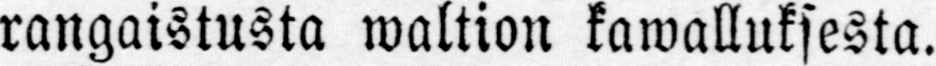rangaistusta waltion kawalluksesta.
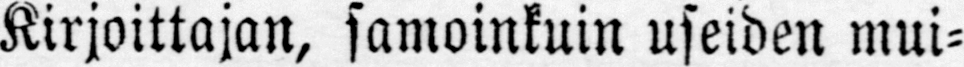Kirjoittajan, samoinkuin useiden mui-
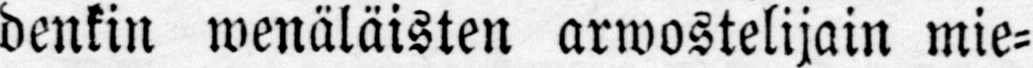denkin wenäläisten arwostelijain mie-
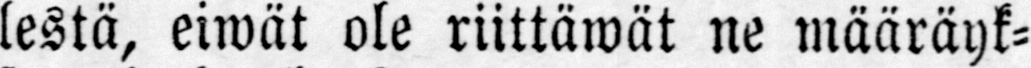lestä, eiwät ole riittäwät ne määräyk-
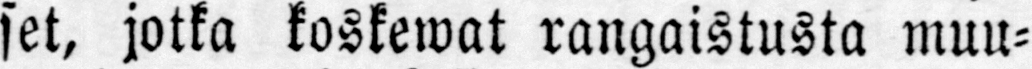set, jotka koskewat rangaistusta muu-
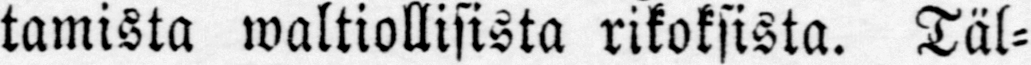tamista waltiollisista rikoksista. Täl-
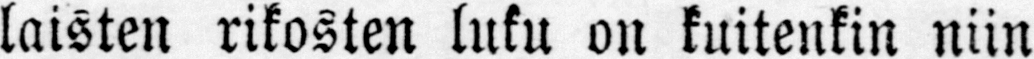laisten rikosten luku on kuitenkin niin
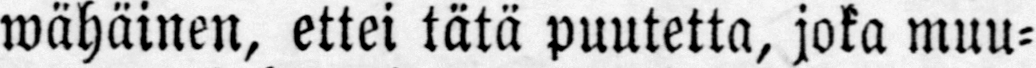wähäinen, ettei tätä puutetta, joka muu-
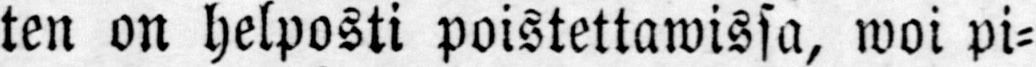ten on helposti poistettawissa, woi pi-
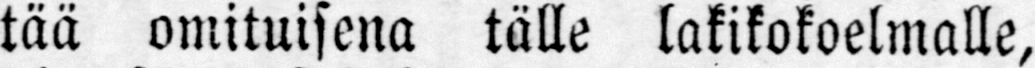tää omituisena tälle lakikokoelmalle,
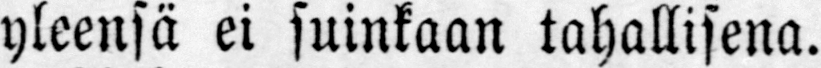yleensä ei suinkaan tahallisena.
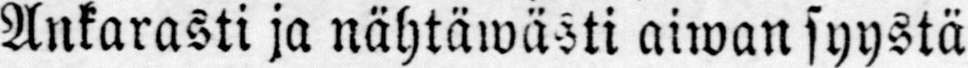Ankarasti ja nähtäwästi aiwan syystä
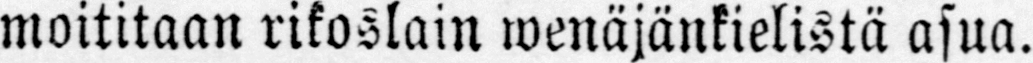moititaan rikoslain wenäjänkielistä asua.
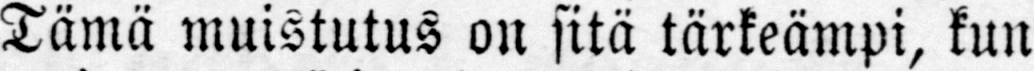Tämä muistutus on sitä tärkeämpi, kun
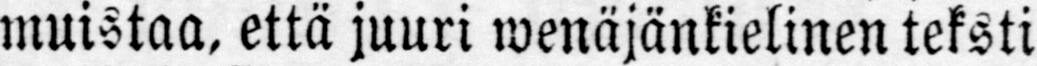muistaa, että juuri wenäjänkielinen teksti
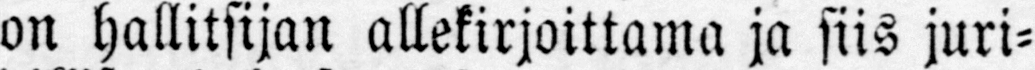on hallitsijan allekirjoittama ja siis juri-
